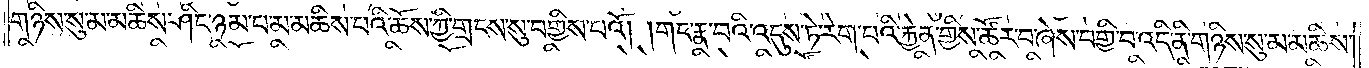གཉིས་སུ་མ་མཆིས་ཤིང་ཉམ་པ་མ་མཆིས་པའི་ཆོས་ཀྱི་གྲངས་སུ་བགྱིས་པའོ། །གང་རྣ་བའི་འདུས་ཏེ་རེག་པའི་རྐྱེན་གྱིས་ཚོར་བ་ཞེས་བགྱི་བ་འདི་ནི་གཉིས་སུ་མ་མཆིས་
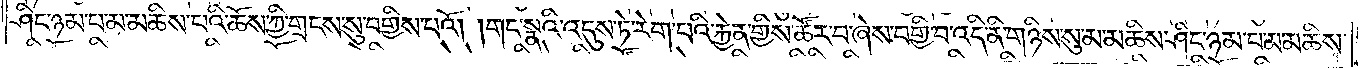ཤིང་ཉམ་པ་མ་མཆིས་པའི་ཆོས་ཀྱི་གྲངས་སུ་བགྱིས་པའོ། །གང་སྣའི་འདུས་ཏེ་རེག་པའི་རྐྱེན་གྱིས་ཚོར་བ་ཞེས་བགྱི་བ་འདི་ནི་གཉིས་སུ་མ་མཆིས་ཤིང་ཉམ་པ་མ་མཆིས་
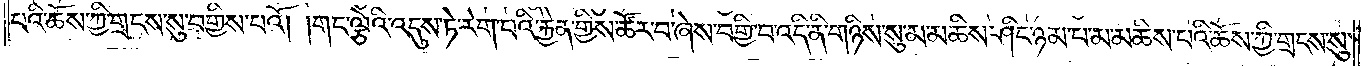པའི་ཆོས་ཀྱི་གྲངས་སུ་བགྱིས་པའོ། །གང་ལྕེའི་འདུས་ཏེ་རེག་པའི་རྐྱེན་གྱིས་ཚོར་བ་ཞེས་བགྱི་བ་འདི་ནི་གཉིས་སུ་མ་མཆིས་ཤིང་ཉམ་པ་མ་མཆིས་པའི་ཆོས་ཀྱི་གྲངས་སུ་
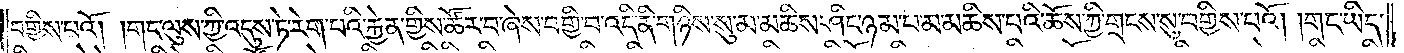བགྱིས་པའོ། །གང་ལུས་ཀྱི་འདུས་ཏེ་རེག་པའི་རྐྱེན་གྱིས་ཚོར་བ་ཞེས་བགྱི་བ་འདི་ནི་གཉིས་སུ་མ་མཆིས་ཤིང་ཉམ་པ་མ་མཆིས་པའི་ཆོས་ཀྱི་གྲངས་སུ་བགྱིས་པའོ། །གང་ཡིད་
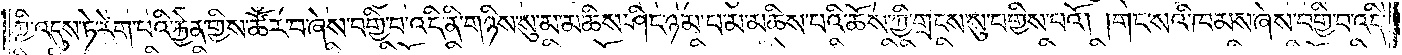ཀྱི་འདུས་ཏེ་རེག་པའི་རྐྱེན་གྱིས་ཚོར་བ་ཞེས་བགྱི་བ་འདི་ནི་གཉིས་སུ་མ་མཆིས་ཤིང་ཉམ་པ་མ་མཆིས་པའི་ཆོས་ཀྱི་གྲངས་སུ་བགྱིས་པའོ། །གང་སའི་ཁམས་ཞེས་བགྱི་བ་འདི་
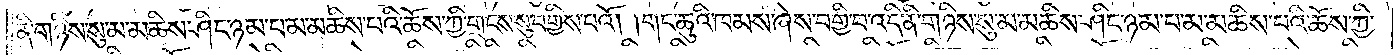ནི་གཉིས་སུ་མ་མཆིས་ཤིང་ཉམ་པ་མ་མཆིས་པའི་ཆོས་ཀྱི་གྲངས་སུ་བགྱིས་པའོ། །གང་ཆུའི་ཁམས་ཞེས་བགྱི་བ་འདི་ནི་གཉིས་སུ་མ་མཆིས་ཤིང་ཉམ་པ་མ་མཆིས་པའི་ཆོས་ཀྱི་
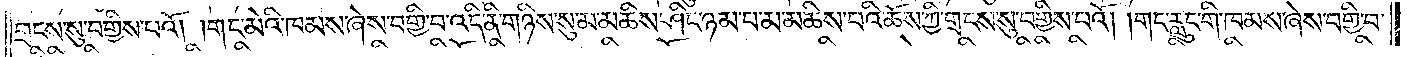གྲངས་སུ་བགྱིས་པའོ། །གང་མེའི་ཁམས་ཞེས་བགྱི་བ་འདི་ནི་གཉིས་སུ་མ་མཆིས་ཤིང་ཉམ་པ་མ་མཆིས་པའི་ཆོས་ཀྱི་གྲངས་སུ་བགྱིས་པའོ། །གང་རླུང་གི་ཁམས་ཞེས་བགྱི་བ་
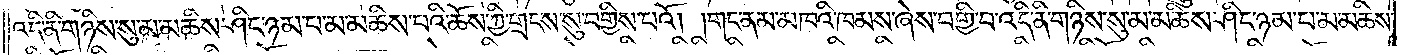འདི་ནི་གཉིས་སུ་མ་མཆིས་ཤིང་ཉམ་པ་མ་མཆིས་པའི་ཆོས་ཀྱི་གྲངས་སུ་བགྱིས་པའོ། །གང་ནམ་མཁའི་ཁམས་ཞེས་བགྱི་བ་འདི་ནི་གཉིས་སུ་མ་མཆིས་ཤིང་ཉམ་པ་མ་མཆིས་
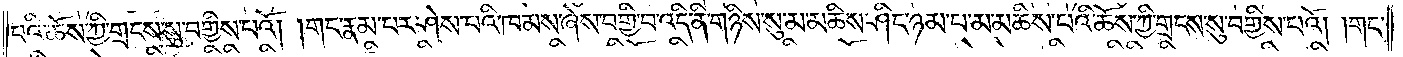པའི་ཆོས་ཀྱི་གྲངས་སུ་བགྱིས་པའོ། །གང་རྣམ་པར་ཤེས་པའི་ཁམས་ཞེས་བགྱི་བ་འདི་ནི་གཉིས་སུ་མ་མཆིས་ཤིང་ཉམ་པ་མ་མཆིས་པའི་ཆོས་ཀྱི་གྲངས་སུ་བགྱིས་པའོ། །གང་
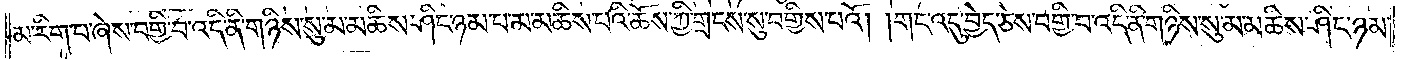མ་རིག་པ་ཞེས་བགྱི་བ་འདི་ནི་གཉིས་སུ་མ་མཆིས་ཤིང་ཉམ་པ་མ་མཆིས་པའི་ཆོས་ཀྱི་གྲངས་སུ་བགྱིས་པའོ། །གང་འདུ་བྱེད་ཅེས་བགྱི་བ་འདི་ནི་གཉིས་སུ་མ་མཆིས་ཤིང་ཉམ་
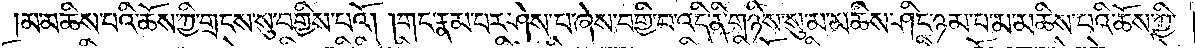མ་མཆིས་པའི་ཆོས་ཀྱི་གྲངས་སུ་བགྱིས་པའོ། །གང་རྣམ་པར་ཤེས་པ་ཞེས་བགྱི་བ་འདི་ནི་གཉིས་སུ་མ་མཆིས་ཤིང་ཉམ་པ་མ་མཆིས་པའི་ཆོས་ཀྱི་
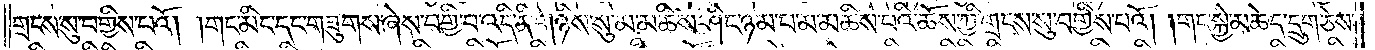གྲངས་སུ་བགྱིས་པའོ། །གང་མིང་དང་གཟུགས་ཞེས་བགྱི་བ་འདི་ནི་གཉིས་སུ་མ་མཆིས་ཤིང་ཉམ་པ་མ་མཆིས་པའི་ཆོས་ཀྱི་གྲངས་སུ་བགྱིས་པའོ། །གང་སྐྱེ་མཆེད་དྲུག་ཅེས་
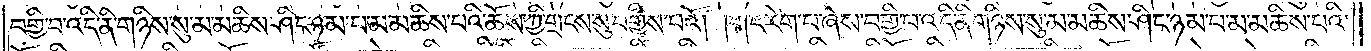བགྱི་བ་འདི་ནི་གཉིས་སུ་མ་མཆིས་ཤིང་ཉམ་པ་མ་མཆིས་པའི་ཆོས་ཀྱི་གྲངས་སུ་བགྱིས་པའོ། །གང་རེག་པ་ཞེས་བགྱི་བ་འདི་ནི་གཉིས་སུ་མ་མཆིས་ཤིང་ཉམ་པ་མ་མཆིས་པའི་
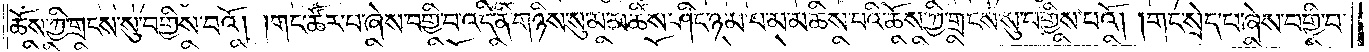ཆོས་ཀྱི་གྲངས་སུ་བགྱིས་པའོ། །གང་ཚོར་བ་ཞེས་བགྱི་བ་འདི་ནི་གཉིས་སུ་མ་མཆིས་ཤིང་ཉམ་པ་མ་མཆིས་པའི་ཆོས་ཀྱི་གྲངས་སུ་བགྱིས་པའོ། །གང་སྲེད་པ་ཞེས་བགྱི་བ་
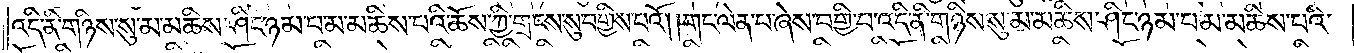འདི་ནི་གཉིས་སུ་མ་མཆིས་ཤིང་ཉམ་པ་མ་མཆིས་པའི་ཆོས་ཀྱི་གྲངས་སུ་བགྱིས་པའོ། །གང་ལེན་པ་ཞེས་བགྱི་བ་འདི་ནི་གཉིས་སུ་མ་མཆིས་ཤིང་ཉམ་པ་མ་མཆིས་པའི་
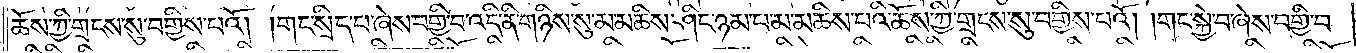ཆོས་ཀྱི་གྲངས་སུ་བགྱིས་པའོ། །གང་སྲིད་པ་ཞེས་བགྱི་བ་འདི་ནི་གཉིས་སུ་མ་མཆིས་ཤིང་ཉམ་པ་མ་མཆིས་པའི་ཆོས་ཀྱི་གྲངས་སུ་བགྱིས་པའོ། །གང་སྐྱེ་བ་ཞེས་བགྱི་བ་
